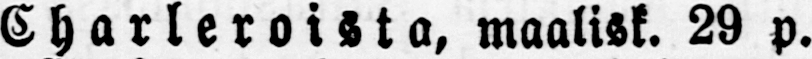Charleroista, maalisk. 29 p.
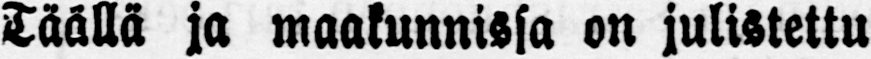Täällä ja maakunnissa on julistettu
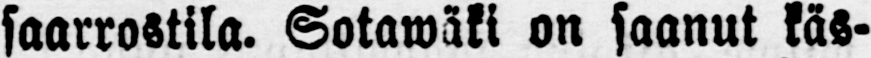saarrostila. Sotawäki on saanut käs-
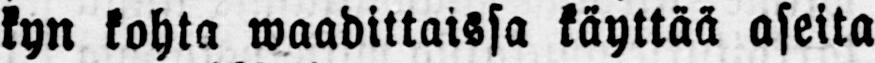kyn kohta waadittaissa käyttää aseita
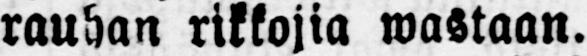rauhan rikkojia wastaan.
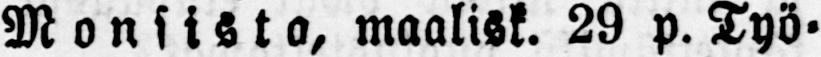Mansista, maalisk. 29 p. Työ-
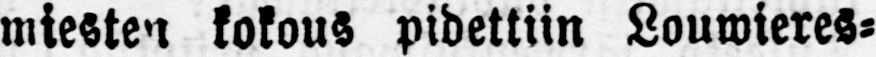miesten kokous pidettiin Louwieres-
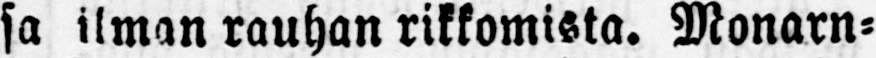sa ilman rauhan rikkomista. Monarn-
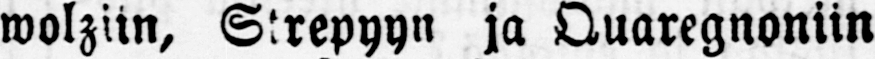wolziin, Sirepyyn ja Quaregnoniin
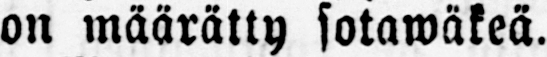on määrätty sotawäkeä.
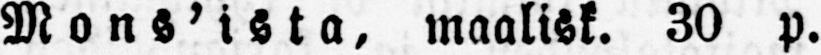Manseista, maalisk. 30 p.
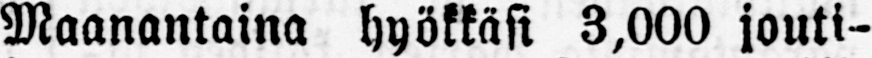Maanantaina hyökkäsi 3,000 jouti-
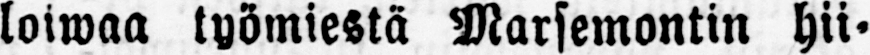loiwaa työmiestä Marsemontin hii-
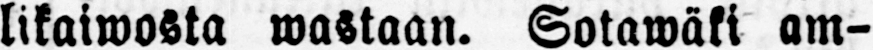likaiwosta wastaan. Sotawäki am-
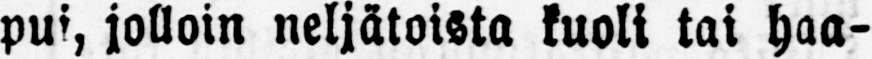pui, jolloin neljätoista kuoli tai haa-
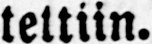tettiin.
